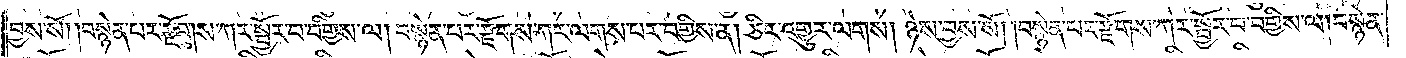བྱས་སོ། །བསྙེན་པར་རྫོགས་ཀར་སྦྱོར་བ་བགྱིས་ལ། བསྙེན་པར་རྫོགས་ཀར་ལགས་པར་བགྱིས་ན། ཅིར་འགྱུར་ལགས། ཉེས་བྱས་སོ། །བསྙེན་པར་རྫོགས་ཀར་སྦྱོར་བ་བགྱིས་ལ། བསྙེན་
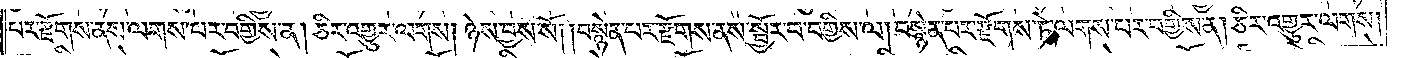པར་རྫོགས་ནས་ལགས་པར་བགྱིས་ན། ཅིར་འགྱུར་ལགས། ཉེས་བྱས་སོ། །བསྙེན་པར་རྫོགས་ནས་སྦྱོར་བ་བགྱིས་ལ། བསྙེན་པར་རྫོགས་ཏེ་ལགས་པར་བགྱིས་ན། ཅིར་འགྱུར་ལགས།
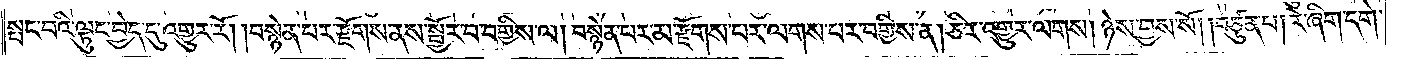སྤང་བའི་ལྟུང་བྱེད་དུ་འགྱུར་རོ། །བསྙེན་པར་རྫོགས་ནས་སྦྱོར་བ་བགྱིས་ལ། བསྙེན་པར་མ་རྫོགས་པར་ལགས་པར་བགྱིས་ན། ཅིར་འགྱུར་ལགས། ཉེས་བྱས་སོ། །བཙུན་པ། རེ་ཞིག་དགེ་
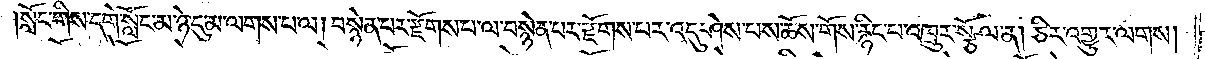།སློང་གིས་དགེ་སློང་མ་ཉེ་དུ་མ་ལགས་པ་ལ། བསྙེན་པར་རྫོགས་པ་ལ་བསྙེན་པར་རྫོགས་པར་འདུ་ཤེས་པས་ཆོས་གོས་རྙིང་པ་འཁྲུར་སྩོལ་ན། ཅིར་འགྱུར་ལགས།
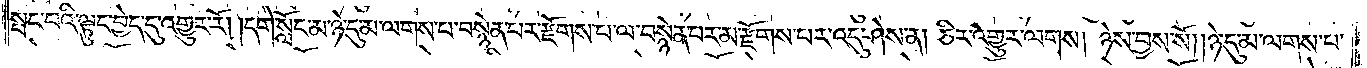སྤང་བའི་ལྟུང་བྱེད་དུ་འགྱུར་རོ། །དགེ་སློང་མ་ཉེ་དུ་མ་ལགས་པ་བསྙེན་པར་རྫོགས་པ་ལ་བསྙེན་པར་མ་རྫོགས་པར་འདུ་ཤེས་ན། ཅིར་འགྱུར་ལགས། ཉེས་བྱས་སོ། །ཉེ་དུ་མ་ལགས་པ་
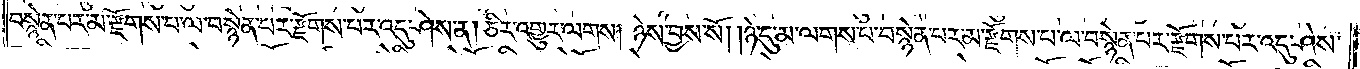བསྙེན་པར་མ་རྫོགས་པ་ལ་བསྙེན་པར་འདུ་ཤེས་ན། ཅིར་འགྱུར་ལགས། ཉེས་བྱས་སོ། །ཉེ་དུ་མ་ལགས་པ་བསྙེན་པར་མ་རྫོགས་པ་ལ་བསྙེན་པར་རྫོགས་པར་འདུ་ཤེས་
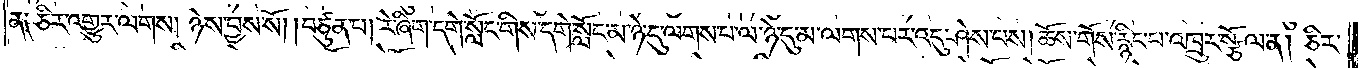ན༑ ཅིར་འགྱུར་ལགས། ཉེས་བྱས་སོ། །བཙུན་པ། རེ་ཞིག་དགེ་སློང་གིས་དགེ་སློང་མ་ཉེ་དུ་ལགས་པ་ལ་ཉེ་དུ་མ་ལགས་པར་འདུ་ཤེས་པས། ཆོས་གོས་རྙིང་པ་འཁྲུར་སྩོལ་ན། ཅིར་
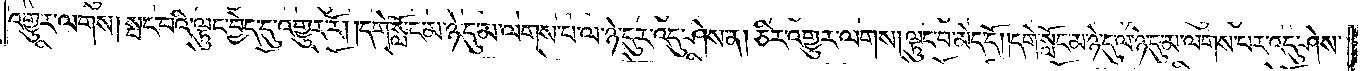འགྱུར་ལགས། སྤང་པའི་ལྟུང་བྱེད་དུ་འགྱུར་རོ། །དགེ་སློང་མ་ཉེ་དུ་མ་ལགས་པ་ལ་ཉེ་དུར་འདུ་ཤེས་ན། ཅིར་འགྱུར་ལགས། ལྟུང་བ་མེད་དོ། །དགེ་སློང་མ་ཉེ་དུ་ལ་ཉེ་དུ་མ་ལགས་པར་འདུ་ཤེས་
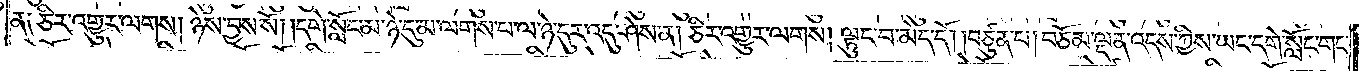ན༑ ཅིར་འགྱུར་ལགས། ཉེས་བྱས་སོ། །དགེ་སློང་མ་ཉེ་དུ་མ་ལགས་པ་ལ་ཉེ་དུར་འདུ་ཤེས་ན། ཅིར་འགྱུར་ལགས། ལྟུང་བ་མེད་དོ། །བཙུན་པ། བཅོམ་ལྡན་འདས་ཀྱིས་ཡང་དགེ་སློང་གང་
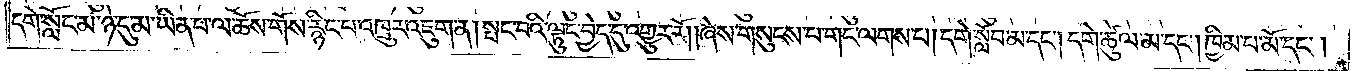དགེ་སློང་མ་ཉེ་དུ་མ་ཡིན་པ་ལ་ཆོས་གོས་རྙིང་པ་འཁྲུར་འཇུག་ན། སྤང་པའི་ལྟུང་བྱེད་དུ་འགྱུར་རོ། །ཞེས་གསུངས་པ་གང་ལགས་པ། དགེ་སློང་མ་དང༌། དགེ་ཚུལ་མ་དང༌། ཁྱིམ་པ་མོ་དང༌།
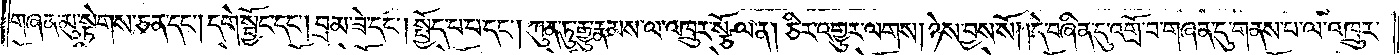གཞན་མུ་སྟེགས་ཅན་དང༌། དགེ་སྦྱོང་དང༌། བྲམ་ཟེ་དང༌། སྤྱོད་པ་པ་དང༌། ཀུན་ཏུ་རྒྱུ་རྣམས་ལ་འཁྲུར་སྩོལ་ན། ཅིར་འགྱུར་ལགས། ཉེས་བྱས་སོ། །དེ་བཞིན་དུ་འགྲོ་བ་གཞན་དུ་གནས་པ་ལ་འཁྲུར་
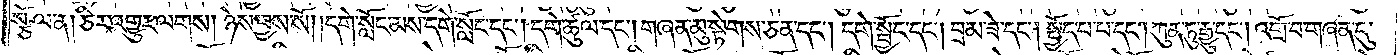སྩོལ་ན། ཅིར་འགྱུར་ལགས། ཉེས་བྱས་སོ། །དགེ་སློང་མས་དགེ་སློང་དང༌། དགེ་ཚུལ་དང༌། གཞན་མུ་སྟེགས་ཅན་དང༌། དགེ་སྦྱོང་དང༌། བྲམ་ཟེ་དང༌། སྤྱོད་པ་པ་དང༌། ཀུན་ཏུ་རྒྱུ་དང༌། འགྲོ་བ་གཞན་དུ་
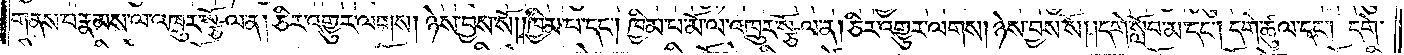གནས་པ་རྣམས་ལ་འཁྲུར་སྩོལ་ན། ཅིར་འགྱུར་ལགས། ཉེས་བྱས་སོ། །ཁྱིམ་པ་དང༌། ཁྱིམ་པ་མོ་ལ་འཁྲུར་སྩོལ་ན། ཅིར་འགྱུར་ལགས། ཉེས་བྱས་སོ། །དགེ་སློབ་མ་དང༌། དགེ་ཚུལ་དང༌། དགེ་
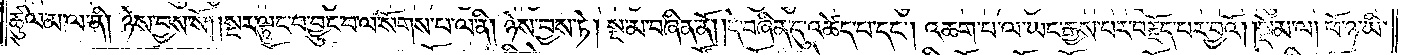ཚུལ་མ་ལ་ནི། ཉེས་བྱས་སོ། །སྔར་ལྟུང་བ་བྱུང་བ་ལ་སོགས་པ་ལ་ནི། ཉེས་བྱས་ཏེ། སྔ་མ་བཞིན་ནོ། །དེ་བཞིན་དུ་འཚེད་པ་དང༌། འཆག་པ་ལ་ཡང་རྒྱས་པར་བརྗོད་པར་བྱའོ།    །སྡོམ་ལ། ཕོ་ཉ་ཡི་
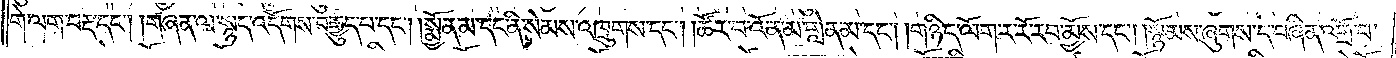གེ་ལག་བརྡ་དང༌། །གཞན་ལ་སྙད་འདོགས་བརྒྱུད་པ་དང༌། །སྨྱོན་མ་དང་ནི་སེམས་འཁྲུགས་དང༌། །ཚོར་བ་འོན་མ་གླེན་མ་དང༌། །གཉིད་ལོག་ར་རོ་རབ་མྱོས་དང༌། །སྙོམས་ཞུགས་དེ་བཞིན་འགྲོ་བ་
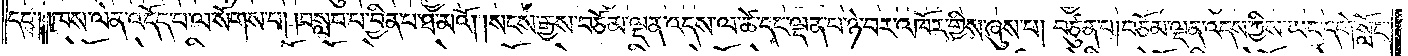དང༌། །ཁས་ལེན་འདོད་པ་ལ་སོགས་པ། །བསླབ་པ་བྱིན་པ་ཐ་མའོ། །སངས་རྒྱས་བཅོམ་ལྡན་འདས་ལ་ཚེ་དང་ལྡན་པ་ཉེ་བར་འཁོར་གྱིས་ཞུས་པ། བཙུན་པ། བཅོམ་ལྡན་འདས་ཀྱིས་ཡང་དགེ་སློང་
